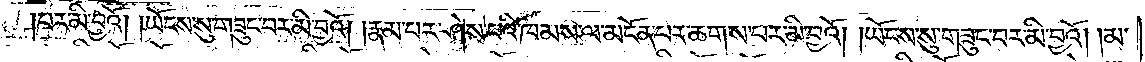པར་མི་བྱའོ། །ཡོངས་སུ་གཟུང་བར་མི་བྱའོ། །རྣམ་པར་ཤེས་པའི་ཁམས་ལ་མངོན་པར་ཆགས་པར་མི་བྱའོ། །ཡོངས་སུ་གཟུང་བར་མི་བྱའོ། །མ་
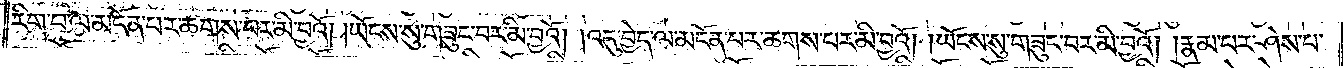རིག་པ་ལ་མངོན་པར་ཆགས་པར་མི་བྱའོ། །ཡོངས་སུ་གཟུང་བར་མི་བྱའོ། །འདུ་བྱེད་ལ་མངོན་པར་ཆགས་པར་མི་བྱའོ། །ཡོངས་སུ་གཟུང་བར་མི་བྱའོ། །རྣམ་པར་ཤེས་པ་
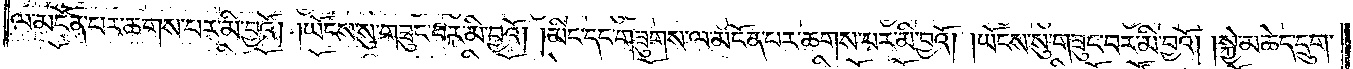ལ་མངོན་པར་ཆགས་པར་མི་བྱའོ། །ཡོངས་སུ་གཟུང་བར་མི་བྱའོ། །མིང་དང་གཟུགས་ལ་མངོན་པར་ཆགས་པར་མི་བྱའོ། །ཡོངས་སུ་གཟུང་བར་མི་བྱའོ། །སྐྱེ་མཆེད་དྲུག་
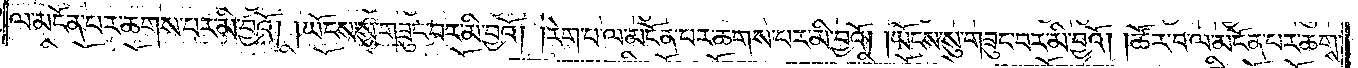ལ་མངོན་པར་ཆགས་པར་མི་བྱའོ། །ཡོངས་སུ་གཟུང་བར་མི་བྱའོ། །རེག་པ་ལ་མངོན་པར་ཆགས་པར་མི་བྱའོ། །ཡོངས་སུ་གཟུང་བར་མི་བྱའོ། །ཚོར་བ་ལ་མངོན་པར་ཆགས་
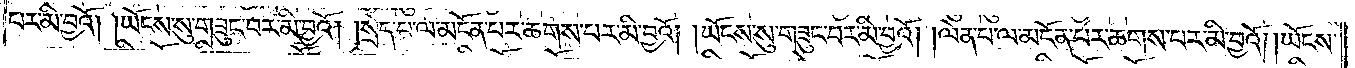པར་མི་བྱའོ། །ཡོངས་སུ་གཟུང་བར་མི་བྱའོ། །སྲེད་པ་ལ་མངོན་པར་ཆགས་པར་མི་བྱའོ། །ཡོངས་སུ་གཟུང་བར་མི་བྱའོ། །ལེན་པ་ལ་མངོན་པར་ཆགས་པར་མི་བྱའོ། །ཡོངས་
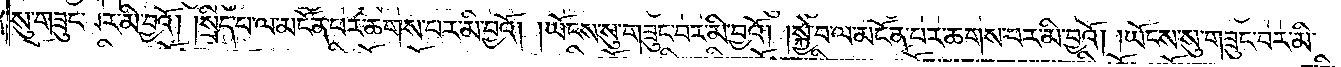སུ་གཟུང་བར་མི་བྱའོ། །སྲིད་པ་ལ་མངོན་པར་ཆགས་པར་མི་བྱའོ། །ཡོངས་སུ་གཟུང་བར་མི་བྱའོ། །སྐྱེ་བ་ལ་མངོན་པར་ཆགས་པར་མི་བྱའོ། །ཡོངས་སུ་གཟུང་བར་མི་
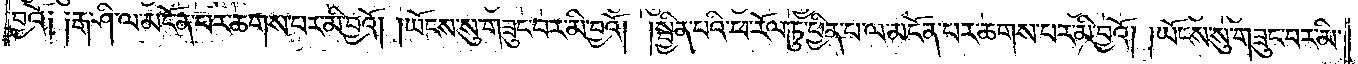བྱའོ༑ ༑རྒ་ཤི་ལ་མངོན་པར་ཆགས་པར་མི་བྱའོ། །ཡོངས་སུ་གཟུང་བར་མི་བྱའོ། །སྦྱིན་པའི་ཕ་རོལ་ཏུ་ཕྱིན་པ་ལ་མངོན་པར་ཆགས་པར་མི་བྱའོ། །ཡོངས་སུ་གཟུང་བར་མི་
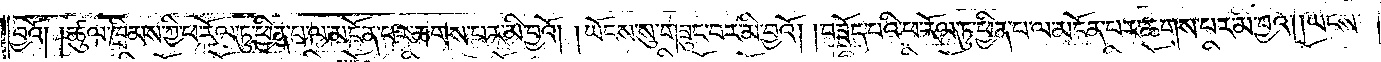བྱའོ། །ཚུལ་ཁྲིམས་ཀྱི་ཕ་རོལ་ཏུ་ཕྱིན་པ་ལ་མངོན་པར་ཆགས་པར་མི་བྱའོ། །ཡོངས་སུ་གཟུང་བར་མི་བྱའོ། །བཟོད་པའི་ཕ་རོལ་ཏུ་ཕྱིན་པ་ལ་མངོན་པར་ཆགས་པར་མི་བྱའོ། །ཡོངས་
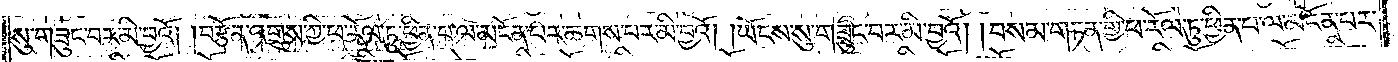སུ་གཟུང་བར་མི་བྱའོ། །བརྩོན་འགྲུས་ཀྱི་ཕ་རོལ་ཏུ་ཕྱིན་པ་ལ་མངོན་པར་ཆགས་པར་མི་བྱའོ། །ཡོངས་སུ་གཟུང་བར་མི་བྱའོ། །བསམ་གཏན་གྱི་ཕ་རོལ་ཏུ་ཕྱིན་པ་ལ་མངོན་པར་
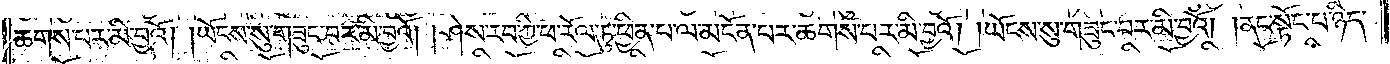ཆགས་པར་མི་བྱའོ། །ཡོངས་སུ་གཟུང་བར་མི་བྱའོ། །ཤེས་རབ་ཀྱི་ཕ་རོལ་ཏུ་ཕྱིན་པ་ལ་མངོན་པར་ཆགས་པར་མི་བྱའོ། །ཡོངས་སུ་གཟུང་བར་མི་བྱའོ། །ནང་སྟོང་པ་ཉིད་
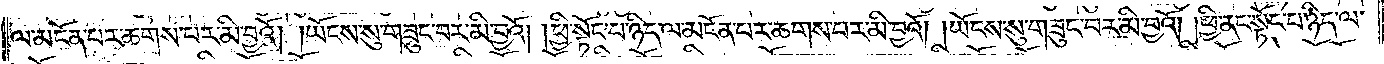ལ་མངོན་པར་ཆགས་པར་མི་བྱའོ། །ཡོངས་སུ་གཟུང་བར་མི་བྱའོ། །ཕྱི་སྟོང་པ་ཉིད་ལ་མངོན་པར་ཆགས་པར་མི་བྱའོ། །ཡོངས་སུ་གཟུང་བར་མི་བྱའོ། །ཕྱི་ནང་སྟོང་པ་ཉིད་ལ་
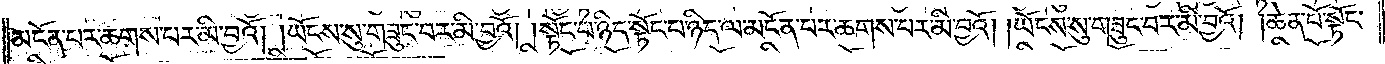མངོན་པར་ཆགས་པར་མི་བྱའོ། །ཡོངས་སུ་གཟུང་བར་མི་བྱའོ། །སྟོང་པ་ཉིད་སྟོང་པ་ཉིད་ལ་མངོན་པར་ཆགས་པར་མི་བྱའོ། །ཡོངས་སུ་གཟུང་བར་མི་བྱའོ། །ཆེན་པོ་སྟོང་
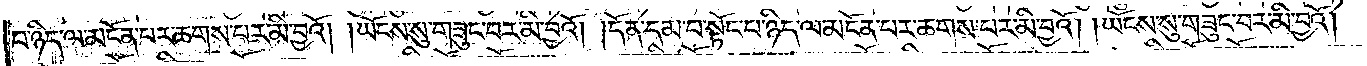པ་ཉིད་ལ་མངོན་པར་ཆགས་པར་མི་བྱའོ། །ཡོངས་སུ་གཟུང་བར་མི་བྱའོ། །དོན་དམ་པ་སྟོང་པ་ཉིད་ལ་མངོན་པར་ཆགས་པར་མི་བྱའོ། །ཡོངས་སུ་གཟུང་བར་མི་བྱའོ། །
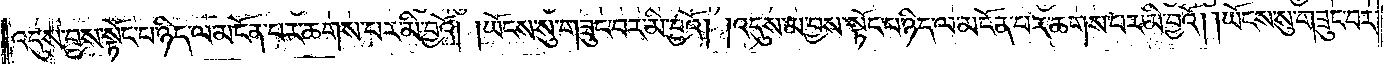འདུས་བྱས་སྟོང་པ་ཉིད་ལ་མངོན་པར་ཆགས་པར་མི་བྱའོ། །ཡོངས་སུ་གཟུང་བར་མི་བྱའོ། །འདུས་མ་བྱས་སྟོང་པ་ཉིད་ལ་མངོན་པར་ཆགས་པར་མི་བྱའོ། །ཡོངས་སུ་གཟུང་བར་
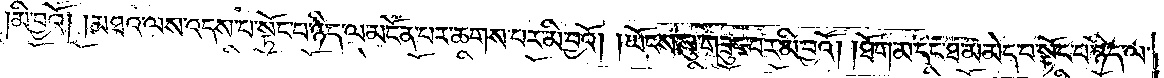མི་བྱའོ། །མཐའ་ལས་འདས་པ་སྟོང་པ་ཉིད་ལ་མངོན་པར་ཆགས་པར་མི་བྱའོ། །ཡོངས་སུ་གཟུང་བར་མི་བྱའོ། །ཐོག་མ་དང་ཐ་མ་མེད་པ་སྟོང་པ་ཉིད་ལ་
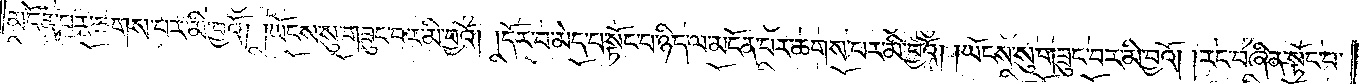མངོན་པར་ཆགས་པར་མི་བྱའོ། །ཡོངས་སུ་གཟུང་བར་མི་བྱའོ། །དོར་བ་མེད་པ་སྟོང་པ་ཉིད་ལ་མངོན་པར་ཆགས་པར་མི་བྱའོ། །ཡོངས་སུ་གཟུང་བར་མི་བྱའོ། །རང་བཞིན་སྟོང་པ་
